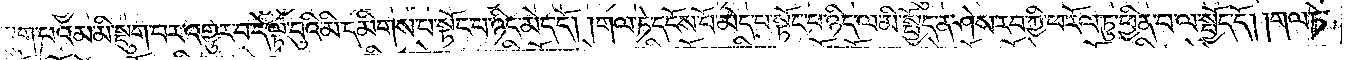སྡུག་པའམ་མི་སྡུག་པར་འགྱུར་བ་དེ་ལྟ་བུའི་མི་དམིགས་པ་སྟོང་པ་ཉིད་མེད་དོ། །གལ་ཏེ་དངོས་པོ་མད་པ་སྟོང་པ་ཉིད་ལ་མི་སྤྱོད་ན་ཤེས་རབ་ཀྱི་ཕ་རོལ་ཏུ་ཕྱིན་པ་ལ་སྤྱོད་དོ། །གལ་ཏེ་
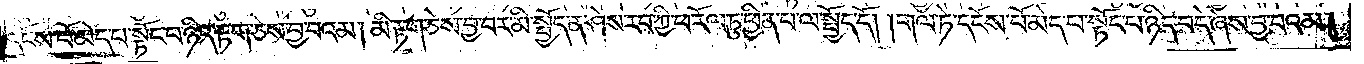དངོས་པོ་མེད་པ་སྟོང་པ་ཉིད་རྟག་ཅེས་བྱ་བའམ། མི་རྟག་ཅེས་བྱ་བར་མི་སྤྱོད་ན་ཤེས་རབ་ཀྱི་ཕ་རོལ་ཏུ་ཕྱིན་པ་ལ་སྤྱོད་དོ། །གལ་ཏེ་དངོས་པོ་མེད་པ་སྟོང་པ་ཉིད་བདེ་ཞེས་བྱ་བའམ།
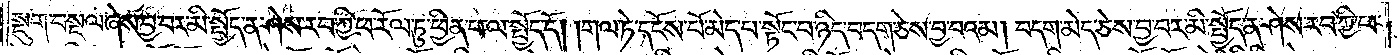སྡུག་བསྔལ་ཞེས་བྱ་བར་མི་སྤྱོད་ན་ཤེས་རབ་ཀྱི་ཕ་རོལ་ཏུ་ཕྱིན་པ་ལ་སྤྱོད་དོ། །གལ་ཏེ་དངོས་པོ་མེད་པ་སྟོང་པ་ཉིད་བདག་ཅེས་བྱ་བའམ། བདག་མེད་ཅེས་བྱ་བར་མི་སྤྱོད་ན་ཤེས་རབ་ཀྱི་ཕ་
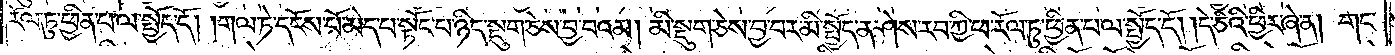རོལ་ཏུ་ཕྱིན་པ་ལ་སྤྱོད་དོ། །གལ་ཏེ་དངོས་པོ་མེད་པ་སྟོང་པ་ཉིད་སྡུག་ཅེས་བྱ་བའམ། མི་སྡུག་ཅེས་བྱ་བར་མི་སྤྱོད་ན་ཤེས་རབ་ཀྱི་ཕ་རོལ་ཏུ་ཕྱིན་པ་ལ་སྤྱོད་དོ། །དེ་ཅིའི་ཕྱིར་ཞེ་ན། གང་
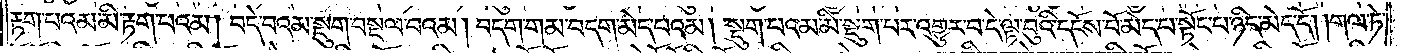རྟག་པའམ་མི་རྟག་པའམ། བདེ་བའམ་སྡུག་བསྔལ་བའམ། བདག་གམ་བདག་མེད་པའམ། སྡུག་པའམ་མི་སྡུག་པར་འགྱུར་བ་དེ་ལྟ་བུའི་དངོས་པོ་མེད་པ་སྟོང་པ་ཉིད་མེད་དོ། །གལ་ཏེ་
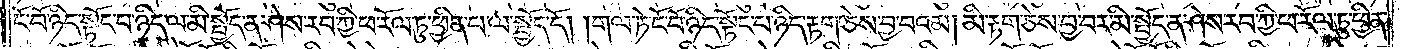ངོ་བོ་ཉིད་སྟོང་པ་ཉིད་ལ་མི་སྤྱོད་ན་ཤེས་རབ་ཀྱི་ཕ་རོལ་ཏུ་ཕྱིན་པ་ལ་སྤྱོད་དོ། །གལ་ཏེ་ངོ་བོ་ཉིད་སྟོང་པ་ཉིད་རྟག་ཅེས་བྱ་བའམ། མི་རྟག་ཅེས་བྱ་བར་མི་སྤྱོད་ན་ཤེས་རབ་ཀྱི་ཕ་རོལ་ཏུ་ཕྱིན་
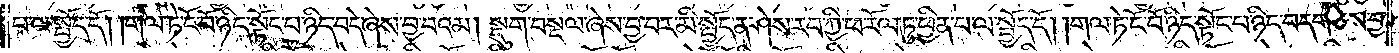པ་ལ་སྤྱོད་དོ། །གལ་ཏེ་ངོ་བོ་ཉིད་སྟོང་པ་ཉིད་བདེ་ཞེས་བྱ་བའམ། སྡུག་བསྔལ་ཞེས་བྱ་བར་མི་སྤྱོད་ན་ཤེས་རབ་ཀྱི་ཕ་རོལ་ཏུ་ཕྱིན་པ་ལ་སྤྱོད་དོ། །གལ་ཏེ་ངོ་བོ་ཉིད་སྟོང་པ་ཉིད་བདག་ཅེས་བྱ་
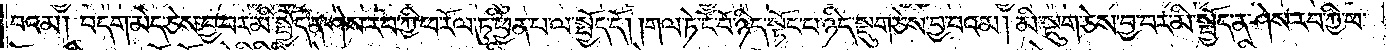བའམ། བདག་མེད་ཅེས་བྱ་བར་མི་སྤྱོད་ན་ཤེས་རབ་ཀྱི་ཕ་རོལ་ཏུ་ཕྱིན་པ་ལ་སྤྱོད་དོ། །གལ་ཏེ་ངོ་བོ་ཉིད་སྟོང་པ་ཉིད་སྡུག་ཅེས་བྱ་བའམ། མི་སྡུག་ཅེས་བྱ་བར་མི་སྤྱོད་ན་ཤེས་རབ་ཀྱི་ཕ་
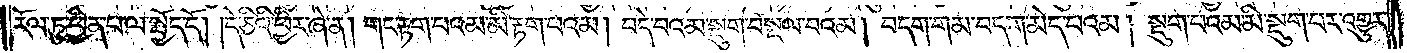རོལ་ཏུ་ཕྱིན་པ་ལ་སྤྱོད་དོ། །དེ་ཅིའི་ཕྱིར་ཞེ་ན། གང་རྟག་པའམ་མི་རྟག་པའམ། བདེ་བའམ་སྡུག་བསྔལ་བའམ། བདག་གམ་བདག་མེད་པའམ། སྡུག་པའམ་མི་སྡུག་པར་འགྱུར་
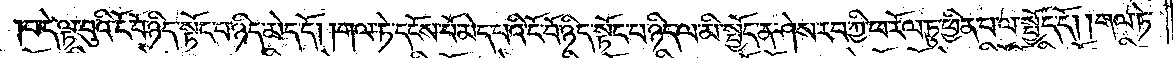བ་དེ་ལྟ་བུའི་ངོ་བོ་ཉིད་སྟོང་པ་ཉིད་མེད་དོ། །གལ་ཏེ་དངོས་པོ་མེད་པའི་ངོ་བོ་ཉིད་སྟོང་པ་ཉིད་ལ་མི་སྤྱོད་ན་ཤེས་རབ་ཀྱི་ཕ་རོལ་ཏུ་ཕྱིན་པ་ལ་སྤྱོད་དོ། །གལ་ཏེ་
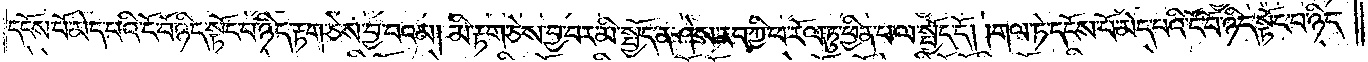དངོས་པོ་མེད་པའི་ངོ་བོ་ཉིད་སྟོང་པ་ཉིད་རྟག་ཅེས་བྱ་བའམ། མི་རྟག་ཅེས་བྱ་བར་མི་སྤྱོད་ན་ཤེས་རབ་ཀྱི་ཕ་རོལ་ཏུ་ཕྱིན་པ་ལ་སྤྱོད་དོ། །གལ་ཏེ་དངོས་པོ་མེད་པའི་ངོ་བོ་ཉིད་སྟོང་པ་ཉིད་
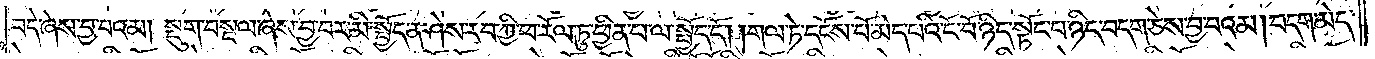བདེ་ཞེས་བྱ་བའམ། སྡུག་བསྔལ་ཞེས་བྱ་བར་མི་སྤྱོད་ན་ཤེས་རབ་ཀྱི་ཕ་རོལ་ཏུ་ཕྱིན་པ་ལ་སྤྱོད་དོ། །གལ་ཏེ་དངོས་པོ་མེད་པའི་ངོ་བོ་ཉིད་སྟོང་པ་ཉིད་བདག་ཅེས་བྱ་བའམ། བདག་མེད་
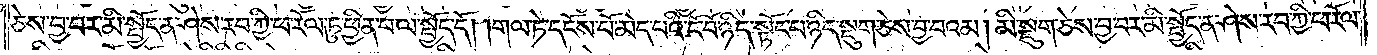ཅེས་བྱ་བར་མི་སྤྱོད་ན་ཤེས་རབ་ཀྱི་ཕ་རོལ་ཏུ་ཕྱིན་པ་ལ་སྤྱོད་དོ། །གལ་ཏེ་དངོས་པོ་མེད་པའི་ངོ་བོ་ཉིད་སྟོང་པ་ཉིད་སྡུག་ཅེས་བྱ་བའམ། མི་སྡུག་ཅེས་བྱ་བར་མི་སྤྱོད་ན་ཤེས་རབ་ཀྱི་ཕ་རོལ་
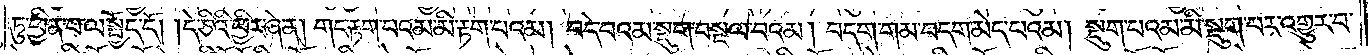ཏུ་ཕྱིན་པ་ལ་སྤྱོད་དོ། །དེ་ཅིའི་ཕྱིར་ཞེ་ན། གང་རྟག་པའམ་མི་རྟག་པའམ། བདེ་བའམ་སྡུག་བསྔལ་བའམ། བདག་གམ་བདག་མེད་པའམ། སྡུག་པའམ་མི་སྡུག་པར་འགྱུར་བ་
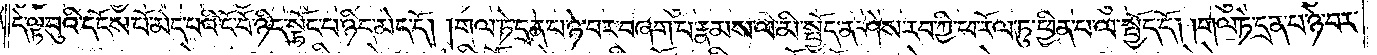དེ་ལྟ་བུའི་དངོས་པོ་མེད་པའི་ངོ་བོ་ཉིད་སྟོང་པ་ཉིད་མེད་དོ། །གལ་ཏེ་དྲན་པ་ཉེ་བར་བཞག་པ་རྣམས་ལ་མི་སྤྱོད་ན་ཤེས་རབ་ཀྱི་ཕ་རོལ་ཏུ་ཕྱིན་པ་ལ་སྤྱོད་དོ། །གལ་ཏེ་དྲན་པ་ཉེ་བར་
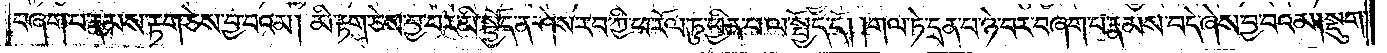བཞག་པ་རྣམས་རྟག་ཅེས་བྱ་བའམ། མི་རྟག་ཅེས་བྱ་བར་མི་སྤྱོད་ན་ཤེས་རབ་ཀྱི་ཕ་རོལ་ཏུ་ཕྱིན་པ་ལ་སྤྱོད་དོ། །གལ་ཏེ་དྲན་པ་ཉེ་བར་བཞག་པ་རྣམས་བདེ་ཞེས་བྱ་བའམ། སྡུག་
